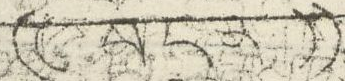(( བདུན་ ))
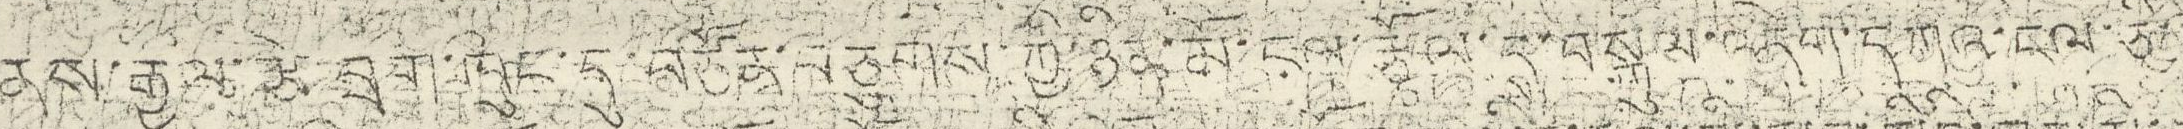ནས་རྒྱལ་རྩེ་བྲག་ཁུང་དུ་བརྩོན་བཅུགས་ཀྱི་ཉིན་མོ་ངལ་རྩོལ་དུ་བསྐུལ་འདེག་དཀའ་ངལ་ཅི་
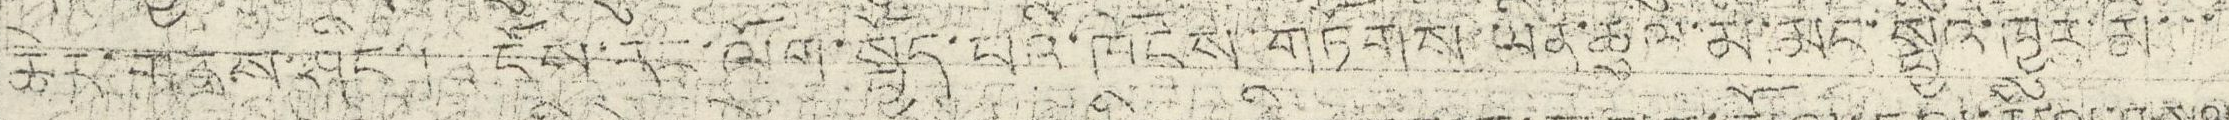ཆེར་གནས་ཤིང་། དོས་རང་ལོག་སྤྱོད་པའི་ཁོངས་གཏོགས་ཡིན་ཚུལ་མི་མང་སྤྱིའི་ཁྱུར་མི་་་
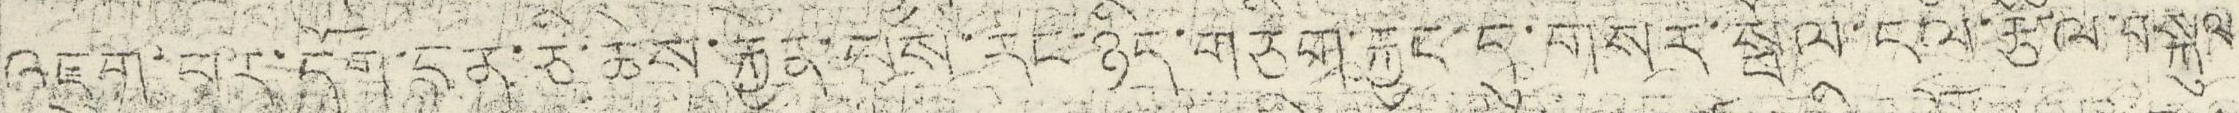འཇུག་པར་དོག་ངན་ཅི་ཆེས་རྐྱེན་པས་རང་ཉིད་གཅིག་རྐྱང་དུ་གསར་སྤོལ་ངལ་རྩོལ་བསྐུལ
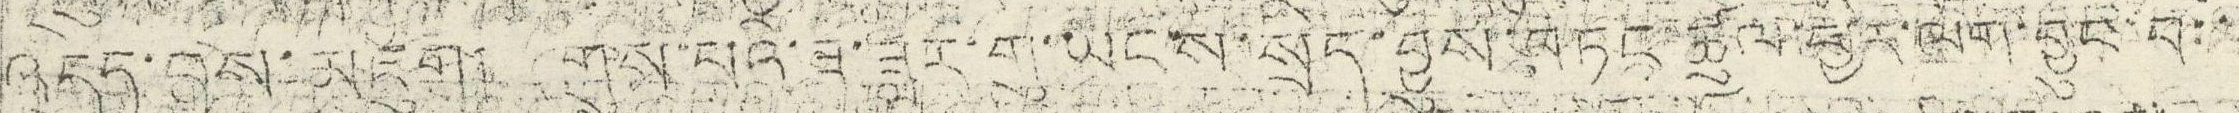འདད་བྱས་འཇུག། གུས་པའི་ས་ཟླར་གུ་ཡངས་སྲིད་བྱུས་བཏང་ཚུལ་ཕྱིར་ལོག་བྱུང་བ་
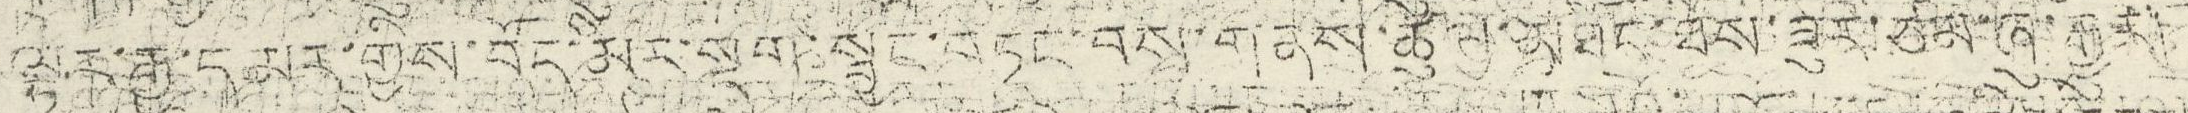ལྟར་རྒྱ་དམར་གྱིས་བོད་མིར་སྡུག་སྦྱང་བཏང་བས་གནས་ཚུལ་མཐོང་ཐོས་ཟུར་ཙམ་ཞུ་རྒྱུར།
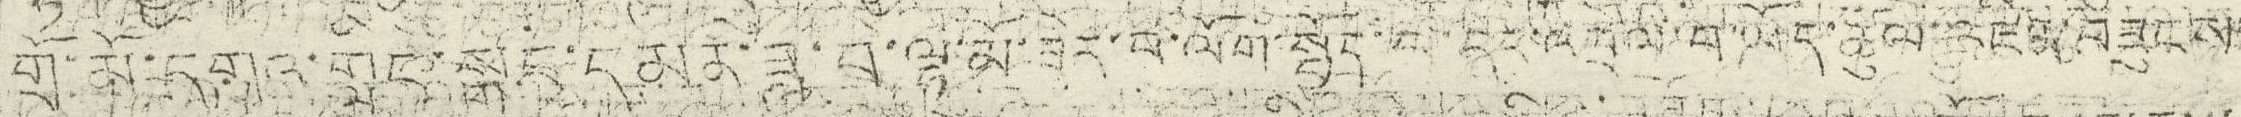གྲོ་མོ་དགའ་གླིང་སྒང་དམན་ཟླ་བ་ལྟ་མོ་ཟེར་བ་ལོག་སྤྱོད་པ་དང་འབྲེལ་བ་ཡོད་ཚུལ་འཛིན་བཟུངས
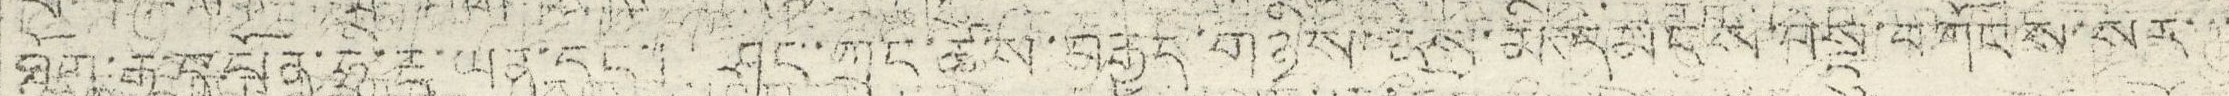ཐོག་རྒྱ་དཔོན་ཧྲི་རྡཱ་ཡན་དང་། ཤང་ཀྲང་ཚོས་བརྒྱད་གཉིས་ནས་མི་དམངས་བསྡུ་ཀོངས་སར་་་
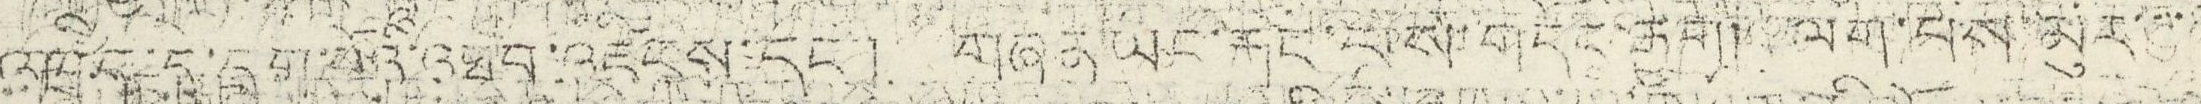འཁྲིད་དུ་དྲག་པོའི་འཐབ་འཛིངས་དང་། གཞན་ཡང་རྐང་པས་གདོང་རྒྱག། ལག་པས་མུར་་་་
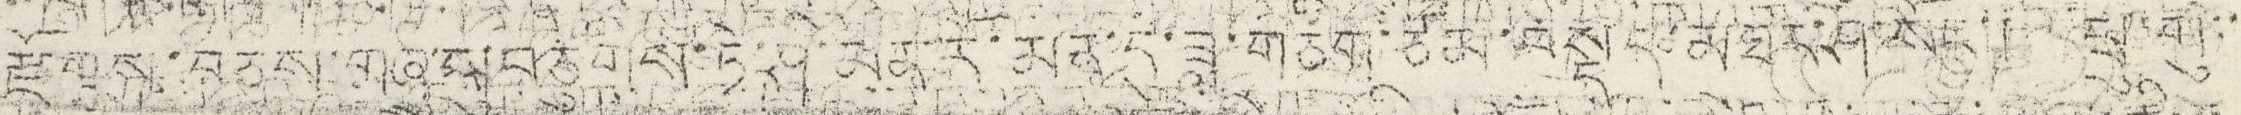རྫོགས་བཅས་གཞུས་བཅུགས་ཏེ་ཤི་མན་རོ་མན་དུ་ཟླ་གཅིག་ཙམ་བསྡད་མཐར་ཤི་སོང་། ཕྲུ་གུ་་
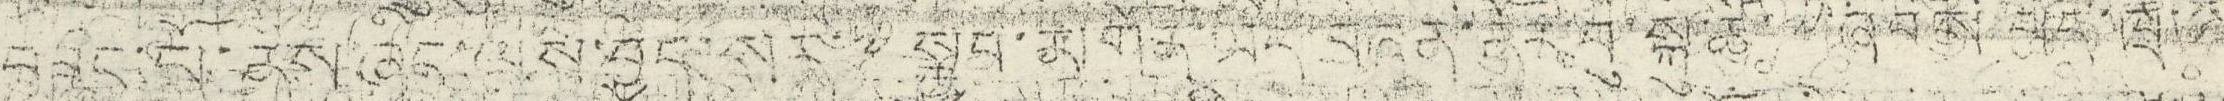བཟང་པོ་ནས་ཞིང་ལས་བྱེད་སར་༸སྐྱབ་མགོན་ཡིད་བཞིན་ནོར་བུ་སྐུ་ཚེ་ཞབས་དཔེ་ཁྲི་་་
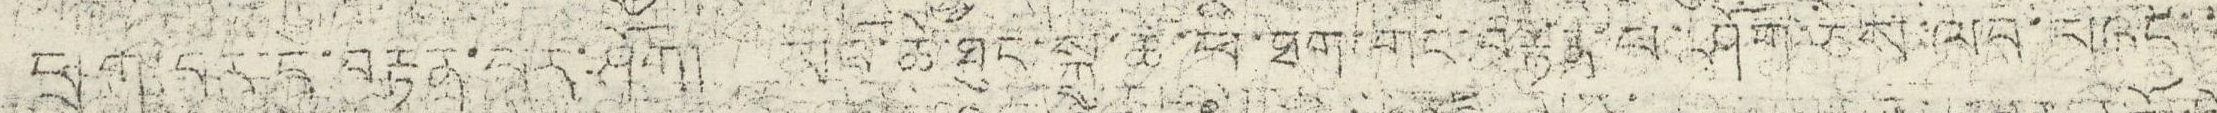ཕྲག་བར་དུ་བརྟན་པར་ཤོག། མའོ་ཚེ་ཐུང་སྐུ་ཚེ་ཕི་ཐག་གང་བརྟན་པར་ཤོག་ཅེས་ལབ་པའང་
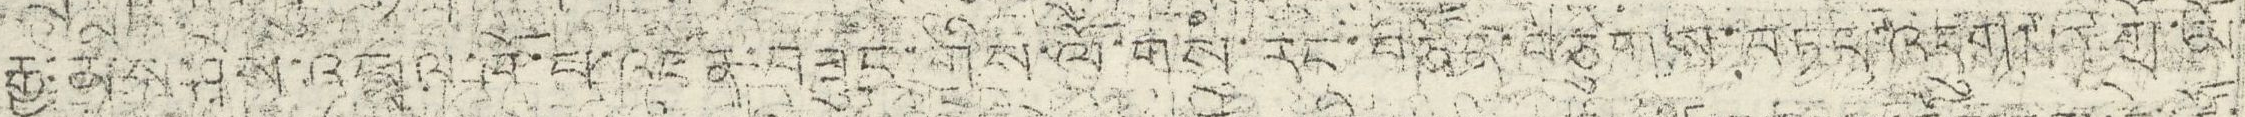རྒྱ་མིས་ཤེས་འཕྲལ་ཁོ་པ་འཛིན་བཟུང་གིས་ལོ་གསུཾ་རང་བཙན་བཙུགས་བཏང་འདུག་གྲོ་མོ་
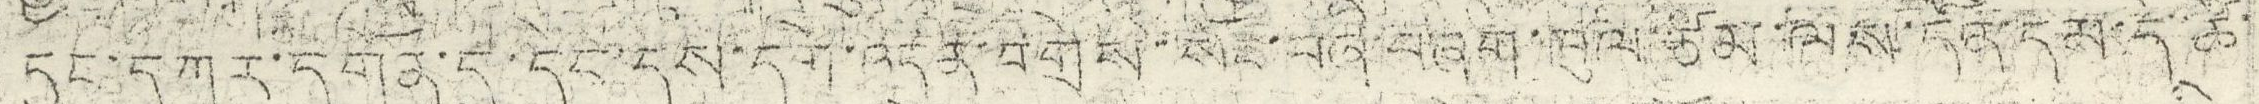དུང་དཀར་དགོན་དུ་དེང་དུས་དགེ་འདུན་བགྲེས་སོང་བཞི་བཞག་ཁུལ་ཙམ་ལས་དོན་དམ་དེ་ཚོ་
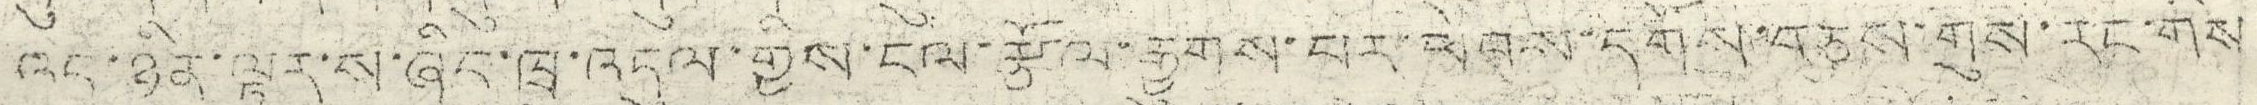འད་ཉིན་ལྟར་ས་ཞིང་ཁྲུ་འདུལ་གྱིས་ངལ་རྩོལ་རྒྱུགས་པར་ཕེབས་དགོས་བཅས་གུས་རང་གིས
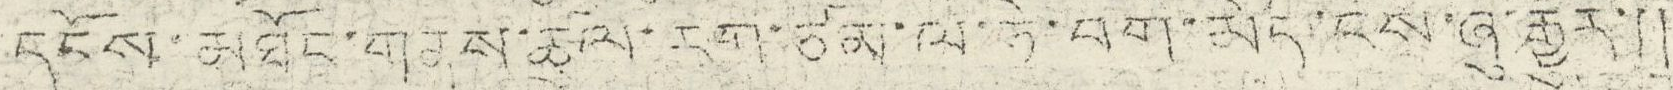དངོས་མཐོང་གནས་ཚུལ་རག་ཙམ་ལ་ཧེ་བགོ་མེད་ངེས་ཞུ་རྒྱུར་།།
